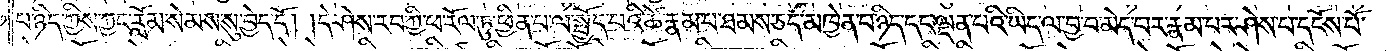པ་ཉིད་ཀྱིས་ཀྱང་རློམ་སེམས་སུ་བྱེད་དོ། །དེ་ཤེས་རབ་ཀྱི་ཕ་རོལ་ཏུ་ཕྱིན་པ་ལ་སྤྱོད་པའི་ཚེ་རྣམ་པ་ཐམས་ཅད་མཁྱེན་པ་ཉིད་དང་ལྡན་པའི་ཡིད་ལ་བྱ་བར་མེད་པར་རྣམ་པར་ཤེས་པ་དངོས་པོ་
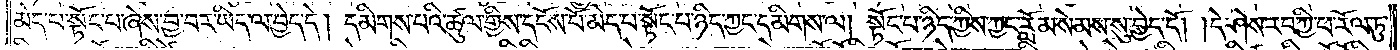མེད་པ་སྟོང་པ་ཞེས་བྱ་བར་ཡིད་ལ་བྱེད་དེ། དམིགས་པའི་ཚུལ་གྱིས་དངོས་པོ་མེད་པ་སྟོང་པ་ཉིད་ཀྱང་དམིགས་ལ། སྟོང་པ་ཉིད་ཀྱིས་ཀྱང་རློམ་སེམས་སུ་བྱེད་དོ། །དེ་ཤེས་རབ་ཀྱི་ཕ་རོལ་ཏུ་
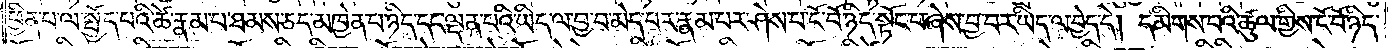ཕྱིན་པ་ལ་སྤྱོད་པའི་ཚེ་རྣམ་པ་ཐམས་ཅད་མཁྱེན་པ་ཉིད་དང་ལྡན་པའི་ཡིད་ལ་བྱ་བ་མེད་པར་རྣམ་པར་ཤེས་པ་ངོ་བོ་ཉིད་སྟོང་པ་ཞེས་བྱ་བར་ཡིད་ལ་བྱེད་དེ། དམིགས་པའི་ཚུལ་གྱིས་ངོ་བོ་ཉིད་
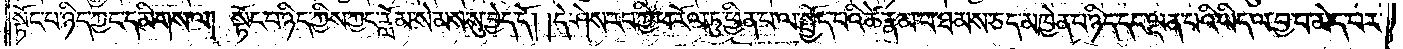སྟོང་པ་ཉིད་ཀྱང་དམིགས་ལ། སྟོང་པ་ཉིད་ཀྱིས་ཀྱང་རློམ་སེམས་སུ་བྱེད་དོ། །དེ་ཤེས་རབ་ཀྱི་ཕ་རོལ་ཏུ་ཕྱིན་པ་ལ་སྤྱོད་པའི་ཚེ་རྣམ་པ་ཐམས་ཅད་མཁྱེན་པ་ཉིད་དང་ལྡན་པའི་ཡིད་ལ་བྱ་བ་མེད་པར་
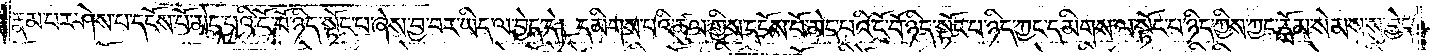རྣམ་པར་ཤེས་པ་དངོས་པོ་མེད་པའི་ངོ་བོ་ཉིད་སྟོང་པ་ཞེས་བྱ་བར་ཡིད་ལ་བྱེད་དེ། དམིགས་པའི་ཚུལ་གྱིས་དངོས་པོ་མེད་པའི་ངོ་བོ་ཉིད་སྟོང་པ་ཉིད་ཀྱང་དམིགས་ལ་སྟོང་པ་ཉིད་ཀྱིས་ཀྱང་རློམ་སེམས་སུ་བྱེད་
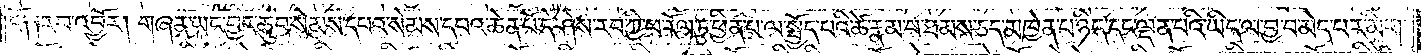དོ༑ ༑རབ་འབྱོར། གཞན་ཡང་བྱང་ཆུབ་སེམས་དཔའ་སེམས་དཔའ་ཆེན་པོ་དེ་ཤེས་རབ་ཀྱི་ཕ་རོལ་ཏུ་ཕྱིན་པ་ལ་སྤྱོད་པའི་ཚེ་རྣམ་པ་ཐམས་ཅད་མཁྱེན་པ་ཉིད་དང་ལྡན་པའི་ཡིད་ལ་བྱ་བ་མེད་པར་མིག་
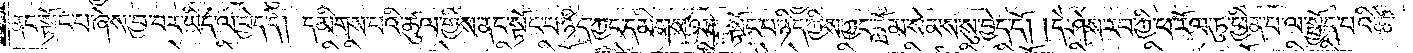ནང་སྟོང་པ་ཞེས་བྱ་བར་ཡིད་ལ་བྱེད་དེ། དམིགས་པའི་ཚུལ་གྱིས་ནང་སྟོང་པ་ཉིད་ཀྱང་དམིགས་ལ། སྟོང་པ་ཉིད་ཀྱིས་ཀྱང་རློམ་སེམས་སུ་བྱེད་དོ། །དེ་ཤེས་རབ་ཀྱི་ཕ་རོལ་ཏུ་ཕྱིན་པ་ལ་སྤྱོད་པའི་ཚེ་
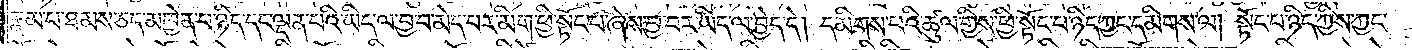རྣམ་པ་ཐམས་ཅད་མཁྱེན་པ་ཉིད་དང་ལྡན་པའི་ཡིད་ལ་བྱ་བ་མེད་པར་མིག་ཕྱི་སྟོང་པ་ཞེས་བྱ་བར་ཡིད་ལ་བྱེད་དེ། དམིགས་པའི་ཚུལ་གྱིས་ཕྱི་སྟོང་པ་ཉིད་ཀྱང་དམིགས་ལ། སྟོང་པ་ཉིད་ཀྱིས་ཀྱང་
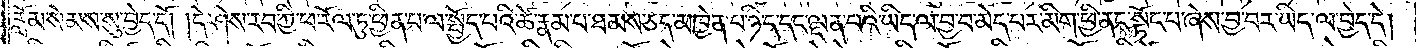རློམ་སེམས་སུ་བྱེད་དོ། །དེ་ཤེས་རབ་ཀྱི་ཕ་རོལ་ཏུ་ཕྱིན་པ་ལ་སྤྱོད་པའི་ཚེ་རྣམ་པ་ཐམས་ཅད་མཁྱེན་པ་ཉིད་དང་ལྡན་པའི་ཡིད་ལ་བྱ་བ་མེད་པར་མིག་ཕྱི་ནང་སྟོང་པ་ཞེས་བྱ་བར་ཡིད་ལ་བྱེད་དེ།
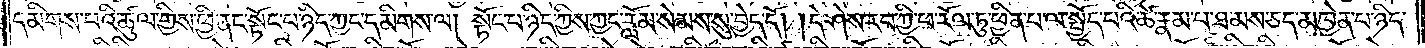དམིགས་པའི་ཚུལ་གྱིས་ཕྱི་ནང་སྟོང་པ་ཉིད་ཀྱང་དམིགས་ལ། སྟོང་པ་ཉིད་ཀྱིས་ཀྱང་རློམ་སེམས་སུ་བྱེད་དོ། །དེ་ཤེས་རབ་ཀྱི་ཕ་རོལ་ཏུ་ཕྱིན་པ་ལ་སྤྱོད་པའི་ཚེ་རྣམ་པ་ཐམས་ཅད་མཁྱེན་པ་ཉིད་
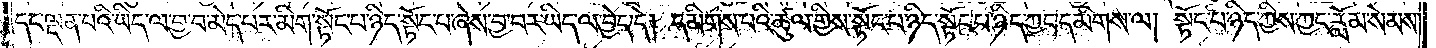དང་ལྡན་པའི་ཡིད་ལ་བྱ་བ་མེད་པར་མིག་སྟོང་པ་ཉིད་སྟོང་པ་ཞེས་བྱ་བར་ཡིད་ལ་བྱེད་དེ། དམིགས་པའི་ཚུལ་གྱིས་སྟོང་པ་ཉིད་སྟོང་པ་ཉིད་ཀྱང་དམིགས་ལ། སྟོང་པ་ཉིད་ཀྱིས་ཀྱང་རློམ་སེམས་
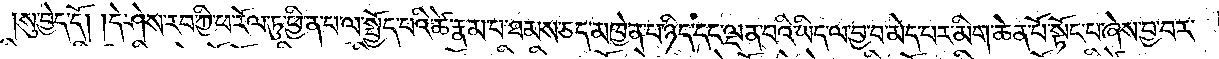སུ་བྱེད་དོ། །དེ་ཤེས་རབ་ཀྱི་ཕ་རོལ་ཏུ་ཕྱིན་པ་ལ་སྤྱོད་པའི་ཚེ་རྣམ་པ་ཐམས་ཅད་མཁྱེན་པ་ཉིད་དང་ལྡན་པའི་ཡིད་ལ་བྱ་བ་མེད་པར་མིག་ཆེན་པོ་སྟོང་པ་ཞེས་བྱ་བར་
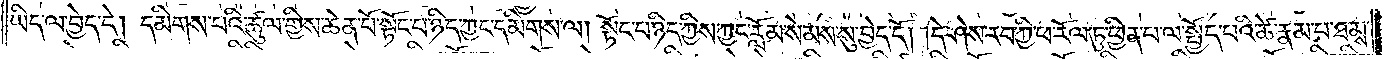ཡིད་ལ་བྱེད་དེ། དམིགས་པའི་ཚུལ་གྱིས་ཆེན་པོ་སྟོང་པ་ཉིད་ཀྱང་དམིགས་ལ། སྟོང་པ་ཉིད་ཀྱིས་ཀྱང་རློམ་སེམས་སུ་བྱེད་དོ། །དེ་ཤེས་རབ་ཀྱི་ཕ་རོལ་ཏུ་ཕྱིན་པ་ལ་སྤྱོད་པའི་ཚེ་རྣམ་པ་ཐམས་
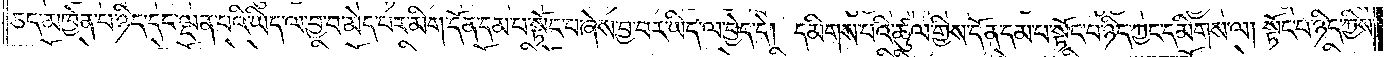ཅད་མཁྱེན་པ་ཉིད་དང་ལྡན་པའི་ཡིད་ལ་བྱ་བ་མེད་པར་མིག་དོན་དམ་པ་སྟོང་པ་ཞེས་བྱ་བར་ཡིད་ལ་བྱེད་དེ། དམིགས་པའི་ཚུལ་གྱིས་དོན་དམ་པ་སྟོང་པ་ཉིད་ཀྱང་དམིགས་ལ། སྟོང་པ་ཉིད་ཀྱིས་
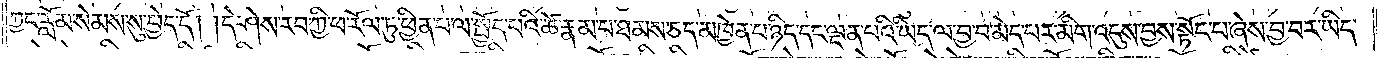ཀྱང་རློམ་སེམས་སུ་བྱེད་དོ། །དེ་ཤེས་རབ་ཀྱི་ཕ་རོལ་ཏུ་ཕྱིན་པ་ལ་སྤྱོད་པའི་ཚེ་རྣམ་པ་ཐམས་ཅད་མཁྱེན་པ་ཉིད་དང་ལྡན་པའི་ཡིད་ལ་བྱ་བ་མེད་པར་མིག་འདུས་བྱས་སྟོང་པ་ཞེས་བྱ་བར་ཡིད་
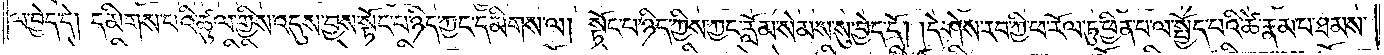ལ་བྱེད་དེ། དམིགས་པའི་ཚུལ་གྱིས་འདུས་བྱས་སྟོང་པ་ཉིད་ཀྱང་དམིགས་ལ། སྟོང་པ་ཉིད་ཀྱིས་ཀྱང་རློམ་སེམས་སུ་བྱེད་དོ། །དེ་ཤེས་རབ་ཀྱི་ཕ་རོལ་ཏུ་ཕྱིན་པ་ལ་སྤྱོད་པའི་ཚེ་རྣམ་པ་ཐམས་
